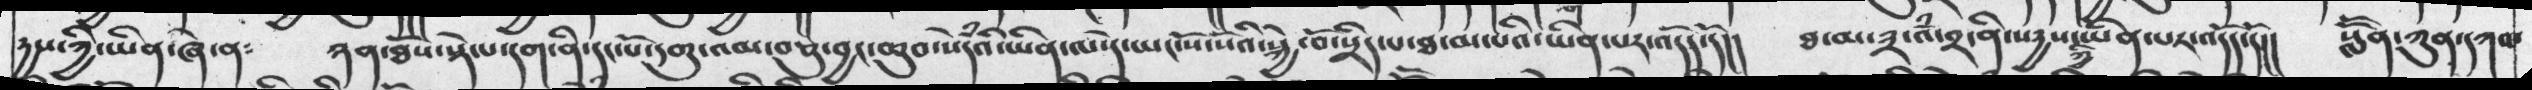དྱས་ཀྱི་ཡིན་ཞེ་ན༴  ཉན་ཐོས་སྡེ་པ་དག་ནི་དང་པོ་དགུ་འམ་བཅུ་བྱང་ཆུབ་སེཾདའ་ཡིན་ལ་དེ་ཡང་སོ་སོའི་སྐྱེ་བོ་སྲིད་པ་ཐ་མ་པའི་ཡིན་པར་འདོད་དོ།།  ཐ་མ་༣་འཾ་བྲ་ནི་སདྱས་ཀྱི་ཡིན་པར་འདོད་དོ།།   སློོན་ཀུན་དགའ་
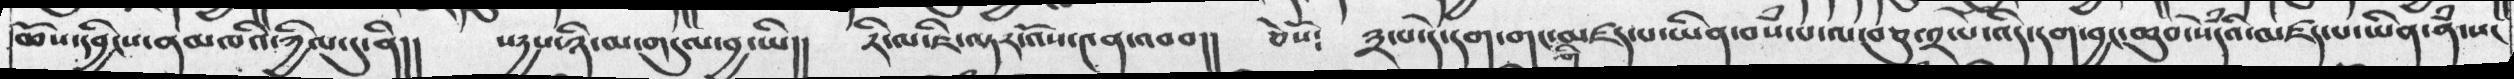ཆོས་དབྱིངས་ནམཁའི་ཀྱིལ་དུ་ནི།།  སདྱས་ཉི་མ་གདུལ་བྱ་ཡི།།  རི་ལ་ཇི་ལྟར་འོས་༤ན་འབབ།།  ཅེསོ༴  ༣་པ་དེ་དག་གང་གི་མཛད་པ་ཡིན་བསཾ་པ་ལ་བཅུ་༢་པ་འདི་དག་བྱང་ཆུབ་སེཾདའ་མཛད་པ་ཡིན་ནཾ་སང
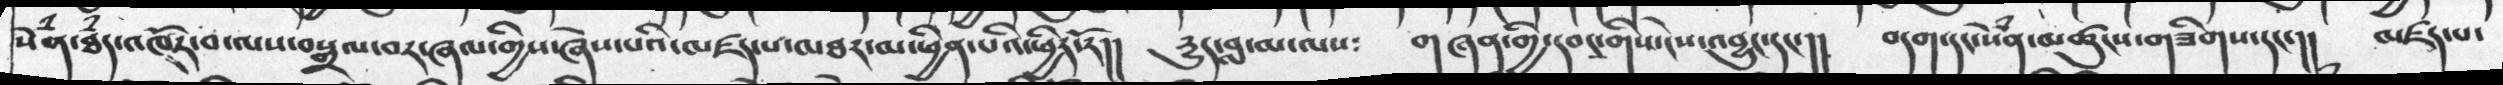སེཾན་ཐཾད་འཁོར་བ་ལས་བསྒྲལ་བར་ཞལ་གྱིས་ཞེས་པའི་མཛད་པ་མཐར་མ་ཕྱིན་པའི་ཕྱིར་རོ།།   དྱུད་བླ་མ་ལས༴  གཞན་གྱི་དབང་གིས་ངེས་འབྱུང་དང་།།   བདག་དང་སེཾན་མཚུངས་གཟིགས་དང་།།  མཛད་པ་
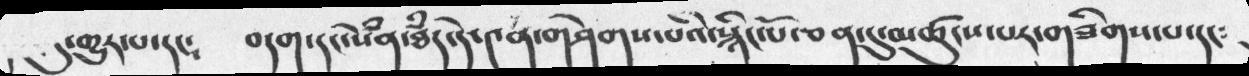དུ་གྱུར་པ་དང༴  བདག་དང་སེཾན་ཐཾད་དེ་༤ན་གཤེགས་པའི་སྙིང་པོ་ཅན་དུ་མཚུངས་པར་གཟིགས་པ་དང༴
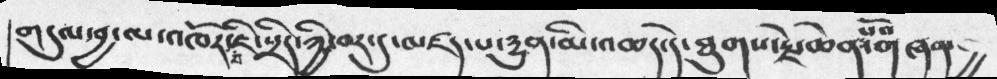གདུལ་བྱ་ལ་འཁོར་བ་ཇི་སྲིད་ཀྱི་བར་དུ་མཛད་པ་དྱུན་མི་འཆད་དེ་ཐུགས་རྗེ་ཆེན་པའོ་གཞན་བྱ
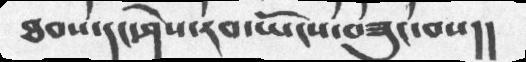ཐབས་དང་ཤེས་རབ་ཡོངས་བཟུང་བས།།
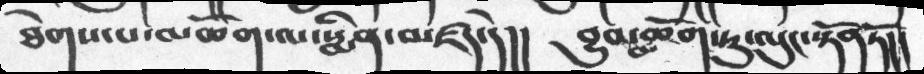ཐེགས་པ་མཆོག་ལ་སྨིན་མཛད་དེ།།  བྱུབ་མཆོག་ཏུ་ལུང་སྟོནཏོ།།
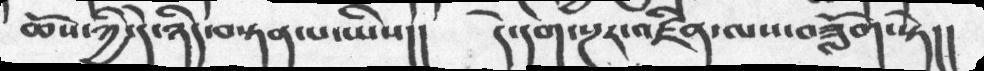ཆོས་ཀྱི་དེ་ཉིད་བསྟན་པ་ཡིས།།  དེ་དག་སྔར་འཛིན་ལས་བཟློག་སྟེ།།
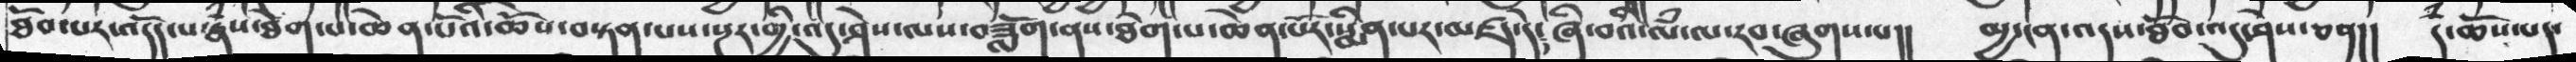ཐོབ་པར་འདོད་པ་རྣཾས་ཐེག་པ་ཆེན་པོའི་ཆོས་བསྟན་པས་སྔར་གྱི་འདུ་ཤེས་ལས་བཟློག་ནས་ཐེག་པ་ཆེན་པོར་སྨིན་པར་མཛད་དེ༴ཞི་བའི་ལཾ་ལ་རབ་ཞུགས་པ།།  མྱ་ངན་འདས་ཐོབ་འདུ་ཤེས་ཅན།།  དཾ་ཆོས་པད་
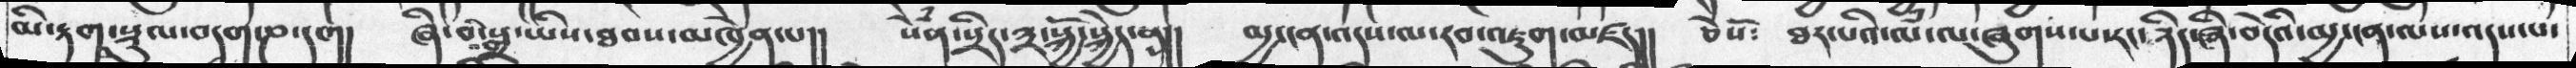མི་རྟག་སྡུལ་བདག་ཎ་དག།  ཞི་བའི་སྒྲ་ཡིས་ཐབས་མཁྱེན་པ།།  སེཾན་སྲིད་༣་སྐྱོ་སྐྱེད་ནས།།  མྱ་ངན་འདས་ལ་རབ་འཇུག་མཛད།།  ཅེསོ༴   ཐར་པའི་ལཾ་ལ་ཞུགས་པ་རང་ཉིད་ཞི་བདེའི་མྱ་ངན་ལས་འདས་པ་
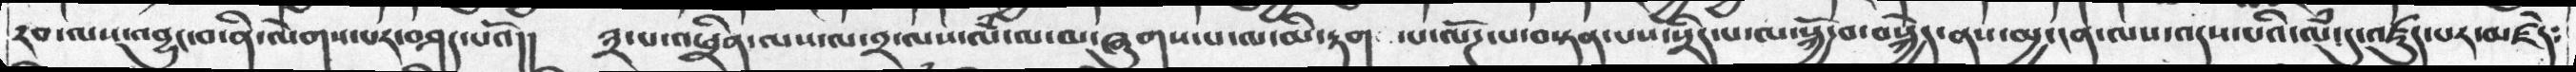རབ་ལས་འབྱུང་བ་ནི་ལེགས་པར་བཤད་པའོ།།   ༣་པ་འཕྲིན་ལས་ལ་༢་ལས་ལཾ་ལ་མ་ཞུགས་པ་ལ་མི་རྟག ་པ་ལོཌ་པ་བསྟན་པས་སྲིད་པ་ལ་སྐྱོ་བ་བསྐྱེད་ནས་མྱ་ངན་ལས་འདས་པའི་ལཾ་དུ་འཛུད་པར་མཛེད༴
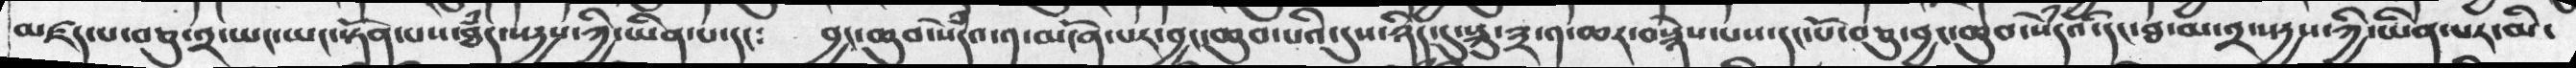མཛད་པ་བཅུ་༢་ཡང་སྟོན་པས་ཐཾད་སདྱས་ཀྱི་ཡིན་པ་དང༴   བྱང་ཆུབ་སེཾདའ་༡་མངོན་པར་བྱང་ཆུབ་པའི་དུས་ཉིད་དུ་སྐུ་༣་༡་ཆར་བསྙེས་པས་དང་པོ་བཅུ་བྱང་ཆུབ་སེཾདའ་དང་ཐ་མ་༢་སདྱས་ཀྱི་ཡིན་པར་མི་
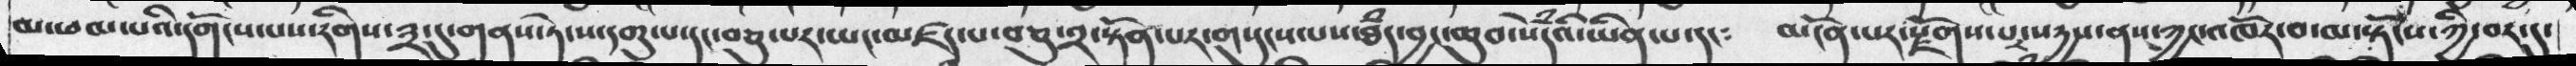མ་ཕམ་པའི་དགོངས་པས་རིགས་༣་དུ་གནས་ཏེ་ས་དགུ་པ་དང་བཅུ་པར་ཡང་མཛད་པ་བཅུ་༢་སྟོན་པར་གསུངས་པས་ཐཾད་བྱང་ཆུབ་སེཾདའི་ཡིན་པ་དང༴  མངོན་པར་རྫོགས་པར་སདྱས་ནས་ཀྱང་འཁོར་བ་ལ་སྟོངས་ཀྱི་བར་དུ་
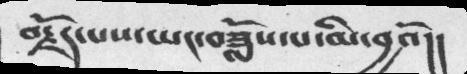བརྗོད་པས་ཡང་བཟློས་པ་མི་བྱའོ།།
